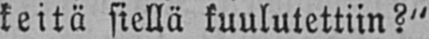keitä siellä kuulutettiin?"
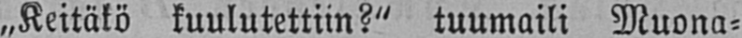„Keitäkö kuulutettiin?" tuumaili Muona-
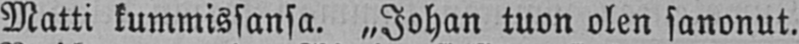Matti kummissansa. „Johan tuon olen sanonut.
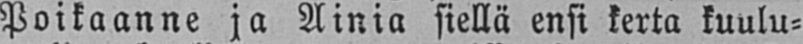Poikaanne ja Ainia siellä ensi kerta kuulu-
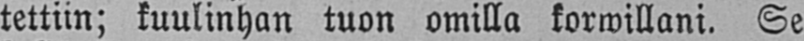tettiin; kuulinhan tuon omilla korwillani. Se
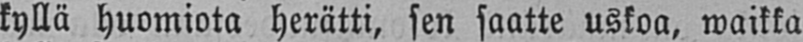kyllä huomiota herätti, sen saatte uskoa, waikka
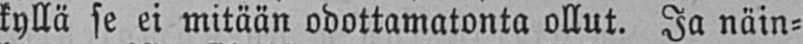kyllä se ei mitään odottamatonta ollut. Ja näin-
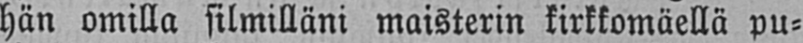hän omilla silmilläni maisterin kirkkomäellä pu-
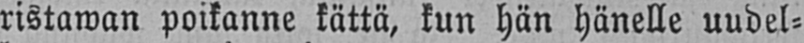ristawan poikanne kättä, kun hän hänelle uudel-
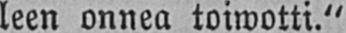leen onnea toiwotti."
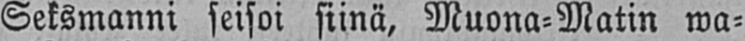Seksmanni seisoi siinä, Muona-Matin wa-
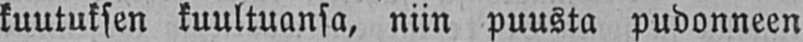kuutuksen kuultuansa, niin puusta pudonneen
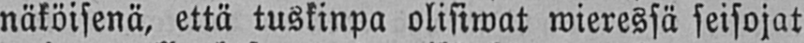näköisenä, että tuskinpa olisiwat wieressä seisojat
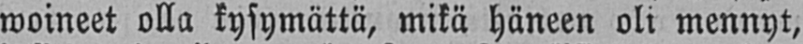woineet olla kysymättä, mikä häneen oli mennyt,
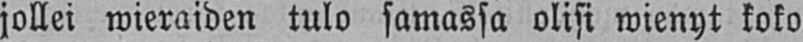jollei wieraiden tulo samassa olisi wienyt koko
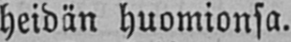heidän huomionsa.
